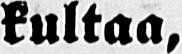kultaa,
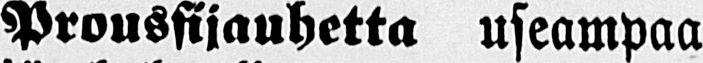Proussijauhetta useampaa
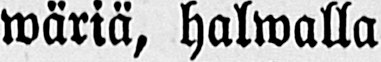wäriä, halwalla
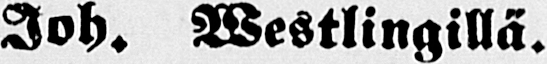Joh. Westlingillä.
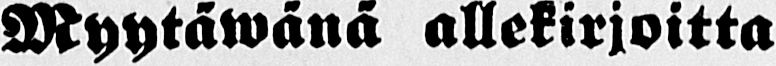Myytäwänä allekirjoita
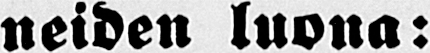neiden luona:
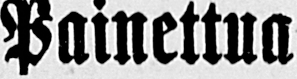Painettua
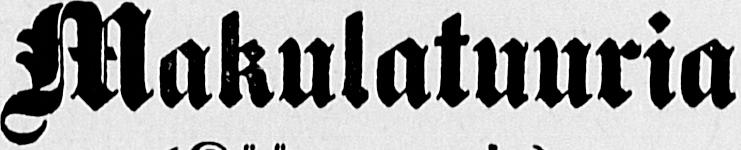Makulatuuria
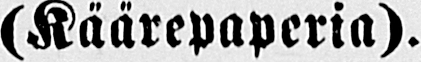(Käärepaperia).
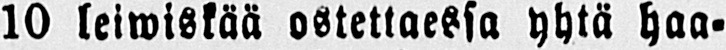10 leiwiskää ostettaessa yhtä haa-
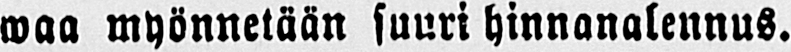waa myönnetään suuri hinnanalennus.
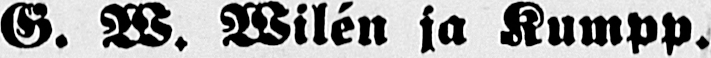G. W. Wilén ja Kumpp.
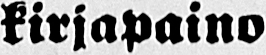kirjapaino
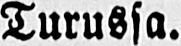Turussa.
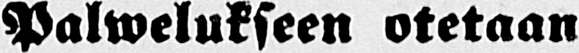Palwelukseen otetaan.
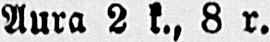Aura 2 k., 8 r.
